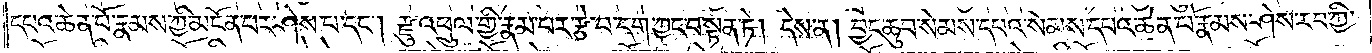དཔའ་ཆེན་པོ་རྣམས་ཀྱི་མངོན་པར་ཤེས་པ་དང༌། རྫུ་འཕྲུལ་གྱིས་རྣམ་པར་རྩེ་བ་དག་ཀྱང་བསྟན་ཏེ། དེས་ན། བྱང་ཆུབ་སེམས་དཔའ་སེམས་དཔའ་ཆེན་པོ་རྣམས་ཤེས་རབ་ཀྱི་
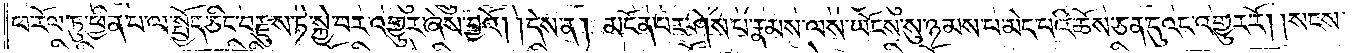ཕ་རོལ་ཏུ་ཕྱིན་པ་ལ་སྤྱོད་ཅིང་བརྫུས་ཏེ་སྐྱེ་བར་འགྱུར་ཞེས་བྱའོ། །དེས་ན། མངོན་པར་ཤེས་པ་རྣམས་ལས་ཡོངས་སུ་ཉམས་པ་མེད་པའི་ཆོས་ཅན་དུའང་འགྱུར་རོ། །སངས་
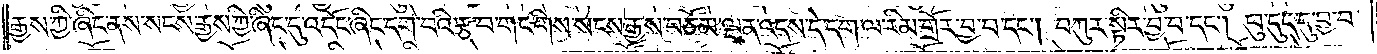རྒྱས་ཀྱི་ཞིང་ནས་སངས་རྒྱས་ཀྱི་ཞིང་དུ་འདོང་ཞིང་དགེ་བའི་རྩ་བ་གང་གིས་སངས་རྒྱས་བཅོམ་ལྡན་འདས་དེ་དག་ལ་རིམ་གྲོར་བྱ་བ་དང༌། བཀུར་སྟིར་བྱ་བ་དང༌། ཕུ་དུད་དུ་བྱ་བ་
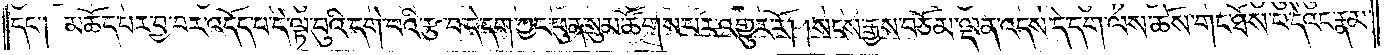དང༌། མཆོད་པར་བྱ་བར་འདོད་པ་དེ་ལྟ་བུའི་དགེ་བའི་རྩ་བ་དེ་དག་ཀྱང་ཕུན་སུམ་ཚོགས་པར་འགྱུར་རོ། །སངས་རྒྱས་བཅོམ་ལྡན་འདས་དེ་དག་ལས་ཆོས་གང་ཐོས་པ་དེའང་རྣམ་
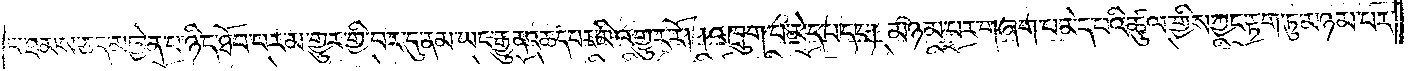པ་ཐམས་ཅད་མཁྱེན་པ་ཉིད་ཐོབ་པར་མ་གྱུར་གྱི་བར་དུ་ནམ་ཡང་རྒྱུན་ཆད་པར་མི་འགྱུར་རོ། །འཁྲུག་པ་མེད་པ་དང༌། མཉམ་པར་གཞག་པ་མེད་པའི་ཚུལ་གྱིས་ཀྱང་རྟག་ཏུ་མཉམ་པར་
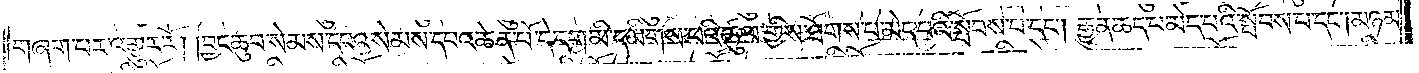གཞག་པར་འགྱུར་རོ། །བྱང་ཆུབ་སེམས་དཔའ་སེམས་དཔའ་ཆེན་པོ་དེ་དག་མི་དམིགས་པའི་ཚུལ་གྱིས་ཐོགས་པ་མེད་པའི་སྤོབས་པ་དང༌། རྒྱུན་ཆད་པ་མེད་པའི་སྤོབས་པ་དང༌། མཉམ་
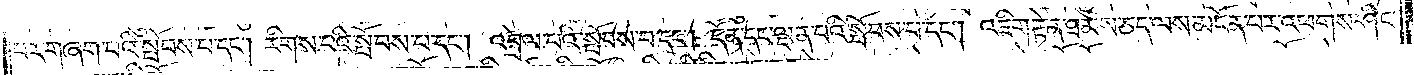པར་གཞག་པའི་སྤོབས་པ་དང༌། རིགས་པའི་སྤོབས་པ་དང༌། འབྲེལ་པའི་སྤོབས་པ་དང༌། དོན་དང་ལྡན་པའི་སྤོབས་པ་དང༌། འཇིག་རྟེན་ཐམས་ཅད་ལས་མངོན་པར་འཕགས་ཤིང་
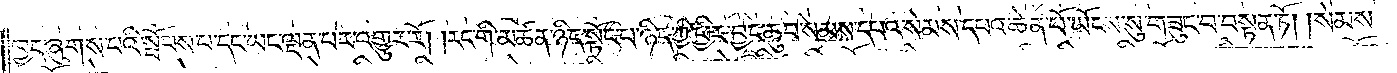ཁྱད་ཞུགས་པའི་སྤོབས་པ་དང་ཡང་ལྡན་བར་འགྱུར་རོ། །རང་གི་མཚན་ཉིད་སྟོང་པ་ཉིད་ཀྱི་ཕྱིར་བྱང་ཆུབ་སེམས་དཔའ་སེམས་དཔའ་ཆན་པོ་ཡོངས་སུ་བཟུང་བ་བསྟན་ཏོ། །སེམས་
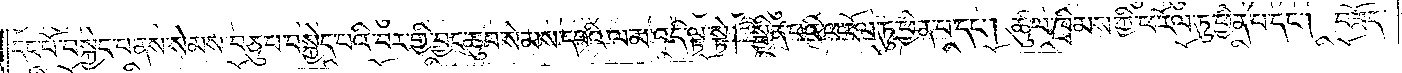དང་པོ་བསྐྱེད་པ་ནས་སེམས་བཅུ་པ་བསྐྱེད་པའི་བར་གྱི་བྱང་ཆུབ་སེམས་དཔའི་ལམ་འདི་ལྟ་སྟེ། སྦྱིན་པའི་ཕ་རོལ་ཏུ་ཕྱིན་པ་དང༌། ཚུལ་ཁྲིམས་ཀྱི་ཕ་རོལ་ཏུ་ཕྱིན་པ་དང༌། བཟོད་
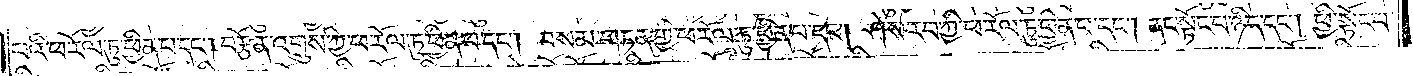པའི་ཕ་རོལ་ཏུ་ཕྱིན་པ་དང༌། བརྩོན་འགྲུས་ཀྱི་ཕ་རོལ་ཏུ་ཕྱིན་པ་དང༌། བསམ་གཏན་གྱི་ཕ་རོལ་ཏུ་ཕྱིན་པ་དང༌། ཤེས་རབ་ཀྱི་ཕ་རོལ་ཏུ་ཕྱིན་པ་དང༌། ནང་སྟོང་པ་ཉིད་དང༌། ཕྱི་སྟོང་པ་
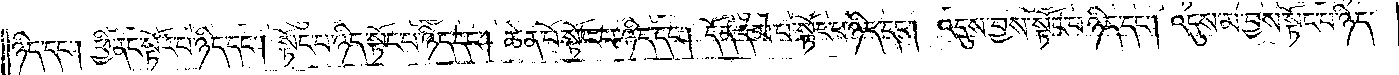ཉིད་དང༌། ཕྱི་ནང་སྟོང་པ་ཉིད་དང༌། སྟོང་པ་ཉིད་སྟོང་པ་ཉིད་དང༌། ཆེན་པོ་སྟོང་པ་ཉིད་དང༌། དོན་དམ་པ་སྟོང་པ་ཉིད་དང༌། འདུས་བྱས་སྟོང་པ་ཉིད་དང༌། འདུས་མ་བྱས་སྟོང་པ་ཉིད་
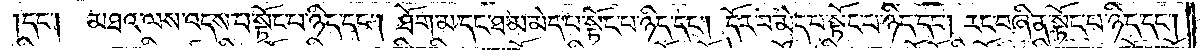དང༌། མཐའ་ལས་འདས་པ་སྟོང་པ་ཉིད་དང༌། ཐོག་མ་དང་ཐ་མ་མེད་པ་སྟོང་པ་ཉིད་དང༌། དོར་བ་མེད་པ་སྟོང་པ་ཉིད་དང༌། རང་བཞིན་སྟོང་པ་ཉིད་དང༌།
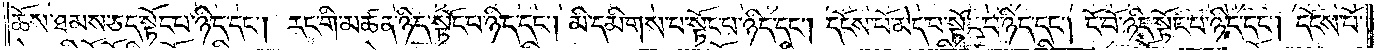ཆོས་ཐམས་ཅད་སྟོང་པ་ཉིད་དང༌། རང་གི་མཚན་ཉིད་སྟོང་པ་ཉིད་དང༌། མི་དམིགས་པ་སྟོང་པ་ཉིད་དང༌། དངོས་པོ་མེད་པ་སྟོང་པ་ཉིད་དང༌། ངོ་བོ་ཉིད་སྟོང་པ་ཉིད་དང༌། དངོས་པོ་
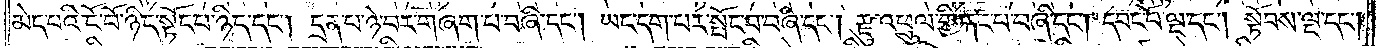མེད་པའི་ངོ་བོ་ཉིད་སྟོང་པ་ཉིད་དང༌། དྲན་པ་ཉེ་བར་གཞག་པ་བཞི་དང༌། ཡང་དག་པར་སྤོང་བ་བཞི་དང༌། རྫུ་འཕྲུལ་གྱི་རྐང་པ་བཞི་དང༌། དབང་པོ་ལྔ་དང༌། སྟོབས་ལྔ་དང༌།
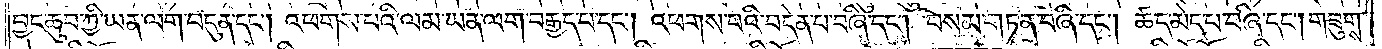བྱང་ཆུབ་ཀྱི་ཡན་ལག་བདུན་དང༌། འཕགས་པའི་ལམ་ཡན་ལག་བརྒྱད་པ་དང༌། འཕགས་པའི་བདེན་པ་བཞི་དང༌། བསམ་གཏན་བཞི་དང༌། ཚད་མེད་པ་བཞི་དང༌། གཟུགས་
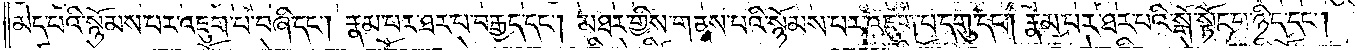མེད་པའི་སྙོམས་པར་འཇུག་པ་བཞི་དང༌། རྣམ་པར་ཐར་པ་བརྒྱད་དང༌། མཐར་གྱིས་གནས་བའི་སྙོམས་པར་འཇུག་པ་དགུ་དང༌། རྣམ་པར་ཐར་པའི་སྒོ་སྟོང་པ་ཉིད་དང༌།
